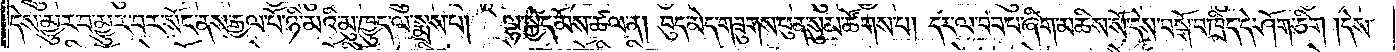དེས་མྱུར་བ་མྱུར་བར་སོང་ནས་རྒྱལ་པོ་ཉི་མའི་མུ་ཁྱུད་ལ་སྨྲས་པ། ལྷ་སྐྱེད་མོས་ཚལ་ན། བུད་མེད་གཟུགས་ཕུན་སུམ་ཚོགས་པ། དར་ལ་བབ་པ་ཞིག་མཆིས་སོ་དེས་བསྒོ་བ་ཁྲིད་དེ་ཤོག་ཅིག །དེས་
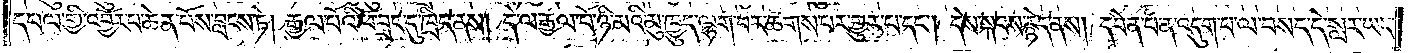དཔལ་གྱི་འབྱོར་པ་ཆེན་པོས་བླངས་ཏེ། རྒྱལ་པོའི་ཕོ་བྲང་དུ་ཁྲིད་ནས། དེ་ལ་རྒྱལ་པོ་ཉི་མའི་མུ་ཁྱུད་ལྷག་པར་ཆགས་པར་གྱུར་པ་དང༌། དེས་སྐབས་རྙེད་ནས། དབེན་པ་ན་འདུག་པ་ལ་བསད་དེ་སླར་ཡང་
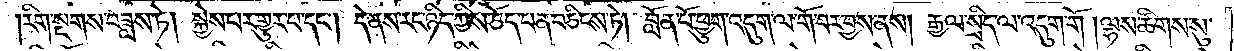།རིག་སྔགས་བཟླས་ཏེ། སྐྱེས་པར་གྱུར་པ་དང༌། དེ་ནས་རང་ཉིད་ཀྱིས་ཅོད་པན་བཅིངས་ཏེ། བློན་པོ་ཕྱུག་འདུག་ལ་གོ་བར་བྱས་ནས། རྒྱལ་སྲིད་ལ་འདུག་གོ །ལྷས་ཚིགས་སུ་
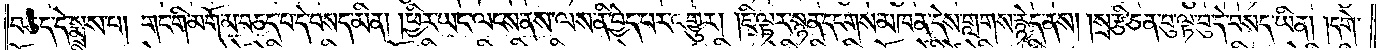བཅད་དེ་སྨྲས་པ། གང་གི་མགོ་མ་བཅད་པ་དེ་བསད་མིན། །ཕྱིར་ཡང་ལངས་ནས་ལས་ནི་བྱེད་པར་འགྱུར། །ཇི་ལྟར་སྙན་དངགས་མཁན་དེས་གླགས་རྙེད་ནས། །སྲ་རྩི་ཅན་བུ་ལྟ་བུ་དེ་བསད་ཡིན། །དགེ་
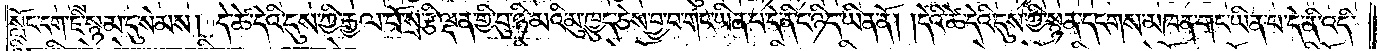སློང་དག་ཇི་སྙམ་དུ་སེམས། དེ་ཚེ་དེའི་དུས་ཀྱི་རྒྱལ་པོ་སྲ་རྩི་ལྡན་གྱི་བུ་ཉི་མའི་མུ་ཁྱུད་ཅེས་བྱ་བ་གང་ཡིན་པ་དེ་ནི་ང་ཉིད་ཡིན་ནོ། །དེའི་ཚེ་དེའི་དུས་ཀྱི་སྙན་དངགས་མཁན་གང་ཡིན་པ་དེ་ནི་འདི་
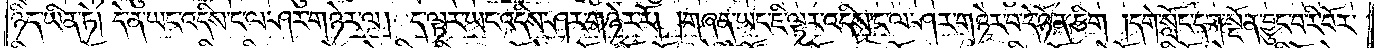ཉིད་ཡིན་ཏེ། དེ་ན་ཡང་འདིས་ང་ལ་ཤར་གཉེར་ལ། ད་ལྟར་ཡང་འདིས་ཤར་གཉེར་རོ། །གཞན་ཡང་ཇི་ལྟར་འདིས་ང་ལ་ཤར་གཉེར་བ་དེ་ཉོན་ཅིག །དགེ་སློང་དག་སྔོན་བྱུང་བ་རི་བོར་
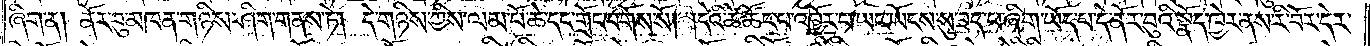ཞིག་ན། ནོར་བུ་མཁན་གཉིས་ཤིག་གནས་ཏེ། དེ་གཉིས་ཀྱིས་ལམ་པོ་ཆེ་དང་གྲོང་བགོས་སོ། །དེའི་ཚེ་ཚོང་པ་འབྱོར་པ་ཡང་ཡོངས་སུ་ཟད་པ་ཞིག་ཡོད་པ་དེ་ནོར་བུའི་སྣོད་ཁྱེར་ནས་རི་བོར་དེར་
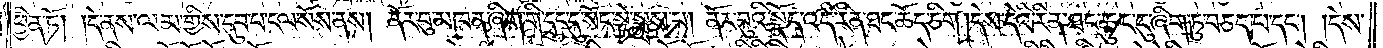ཕྱིན་ཏོ། །དེ་ནས་ལམ་གྱིས་དུབ་པ་ངལ་སོས་ནས། ནོར་བུ་མཁན་ཞིག་གི་དྲུང་དུ་སོང་སྟེ་སྨྲས་པ། ནོར་བུའི་སྣོད་འདི་རིན་ཐང་ཆོད་ཅིག །དེས་དེའི་རིན་ཐང་ཆུང་ངུ་ཞིག་ཏུ་བཅད་པ་དང༌། །དེས་
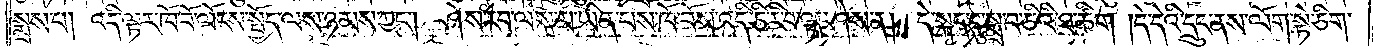སྨྲས་པ། འདི་ལྟར་ཁོ་བོ་ལོངས་སྤྱོད་ལས་ཉམས་ཀྱང༌། ཤེས་རབ་ལས་མ་ཡིན་པས་ཁོ་བོས་འདི་ཅི་རི་བ་ལྟ་ཤེས་ན། དེ་སྐད་དུ་སྨྲ་བ་ཅིའི་ཐ་ཚིག །དེ་དེའི་དྲུང་ནས་ལོག་སྟེ་ཅིག་
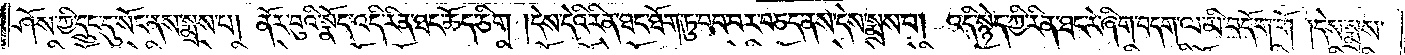ཤོས་ཀྱི་དྲུང་དུ་སོང་ནས་སྨྲས་པ། ནོར་བུའི་སྣོད་འདི་རིན་ཐང་ཆོད་ཅིག །དེས་དེའི་རིན་ཐང་ཐོག་ཏུ་བབ་པར་བཅད་ནས་དེས་སྨྲས་པ། འདི་སྙེད་ཀྱི་རིན་ཐང་རེ་ཞིག་བདག་ལ་མི་བདོག་གོ །དེས་སྨྲས་
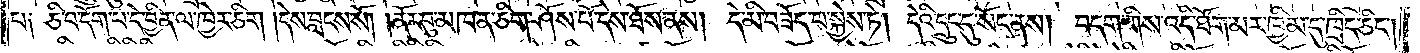པ༑ ཅི་བ་དོག་པ་དེ་བྱིན་ལ་ཁྱེར་ཅིག །དེས་བླངས་སོ། །ནོར་བུ་མཁན་ཅིག་ཤོས་པོ་དེས་ཐོས་ནས། དེ་མི་བཟོད་པ་སྐྱེས་ཏེ། དེའི་དྲུང་དུ་སོང་ནས། བདག་གིས་འདི་ཐོག་མར་ཁྱིམ་དུ་ཁྲིད་ཅིང༌།
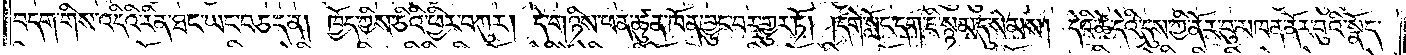བདག་གིས་འདིའི་རིན་ཐང་ཡང་བཅད་ན། ཁྱོད་ཀྱིས་ཅིའི་ཕྱིར་བཀུར། དེ་གཉིས་ཕན་ཚུན་ཁོན་བྱུང་བར་གྱུར་ཏོ། །དགེ་སློང་དག་ཇི་སྙམ་དུ་སེམས། དེའི་ཚེ་དེའི་དུས་ཀྱི་ནོར་བུ་མཁན་ནོར་བུའི་སྣོད་
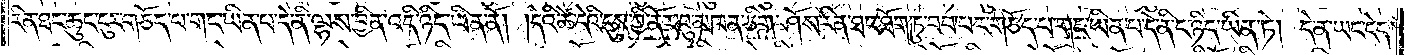རིན་ཐང་ཆུང་ངུར་གཅོད་པ་གང་ཡིན་པ་དེ་ནི་ལྷས་བྱིན་འདི་ཉིད་ཡིན་ནོ། །དེའི་ཚེ་དེའི་དུས་ཀྱི་ནོར་བུ་མཁན་ཅིག་ཤོས་རིན་ཐང་ཐོག་ཏུ་བབ་པར་གཅོད་པ་གང་ཡིན་པ་དེ་ནི་ང་ཉིད་ཡིན་ཏེ། དེ་ན་ཡང་ངེད་
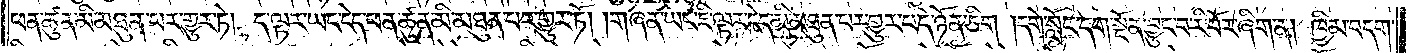ཕན་ཚུན་མི་མཐུན་པར་གྱུར་ཏེ། ད་ལྟར་ཡང་ངེད་ཕན་ཚུན་མི་མཐུན་པར་གྱུར་ཏོ། །གཞན་ཡང་ཇི་ལྟར་ངེད་མི་མཐུན་པར་གྱུར་པ་དེ་ཉོན་ཅིག །དགེ་སློང་དག་སྔོན་བྱུང་བ་རི་བོར་ཞིག་ན། ཁྱིམ་བདག་
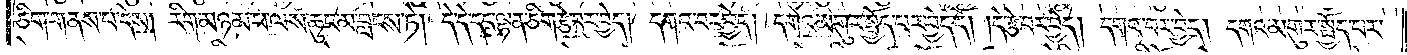ཅིག་གནས་པ་དེས། རིག་མཉམ་པ་ལས་ཆུང་མ་བླངས་ཏེ། དེ་དེ་དང་ལྷན་ཅིག་རྩེ་བར་བྱེད། དགའ་བར་བྱེད། དགའ་མགུར་སྤྱོད་པར་བྱེད་དོ། །དེ་རྩེ་བར་བྱེད། དགའ་བར་བྱེད། དགའ་མགུར་སྤྱོད་པར་
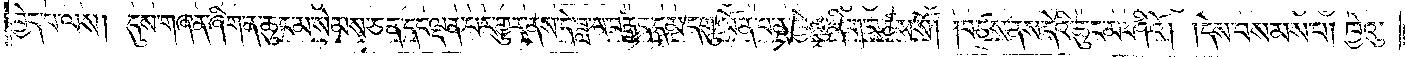བྱེད་པ་ལས། དུས་གཞན་ཞིག་ན་ཆུང་མ་སེམས་ཅན་དང་ལྡན་པར་གྱུར་ནས་དེ་ཟླ་བ་བརྒྱད་དམ་དགུ་ལོན་པ་ན་ཁྱེའུ་ཞིག་བཙས་སོ། །བཙས་ནས་དེའི་ཆུང་མ་ཤིའོ། །དེས་བསམས་པ། ཁྱེའུ་
